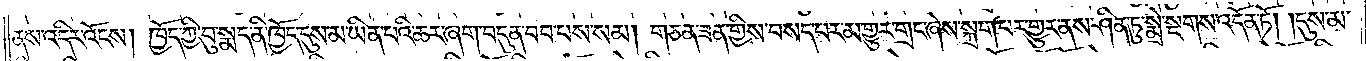ནས་འདིར་འོངས། ཁྱོད་ཀྱི་བུ་སྨད་ནི་ཁྱོད་དུས་མ་ཡིན་པའི་ཆར་ཞག་བདུན་བབ་པས་སམ། གཅན་ཟན་གྱིས་བསད་པར་མ་གྱུར་གྲང་ཞེས་སྐྲག་པར་གྱུར་ནས་ཤིན་ཏུ་སྨྲེ་སྔགས་འདོན་ཏོ། །དུས་མ་
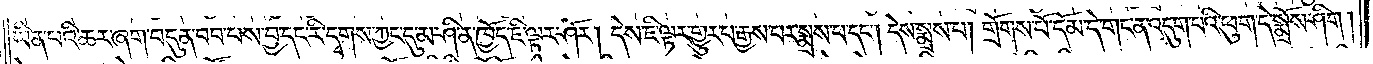ཡིན་པའི་ཆར་ཞག་བདུན་བབ་པས་བྱ་དང་རི་དྭགས་ཀྱང་དུ་མ་ཤི་ན་ཁྱོད་ཇི་ལྟར་ཤོར། དེས་ཇི་ལྟར་གྱུར་པ་རྒྱས་པར་སྨྲས་པ་དང༌། དེས་སྨྲས་པ། གྲོགས་པོ་དོམ་དེ་གང་ན་འདུག་པའི་ཕུག་དེ་སྨྲོས་ཤིག །
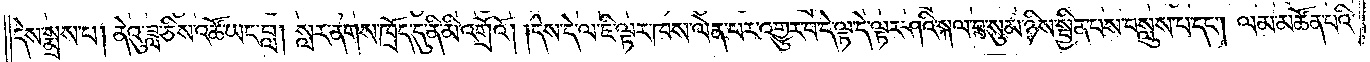དེས་སྨྲས་པ། ནེའུ་ཟླ་ཅིས་འཚོ་ཡང་བླ། སླར་ནགས་ཁྲོད་དུ་ནི་མི་འགྲོའོ། །དེས་དེ་ལ་ཇི་ལྟར་ཁས་ལེན་པར་འགྱུར་བ་དེ་ལྟ་དེ་ལྟར་ཤའི་སྐལ་བ་སུམ་ཉིས་སྦྱིན་པས་བསླུས་པ་དང༌། ལམ་མཚོན་པའི་
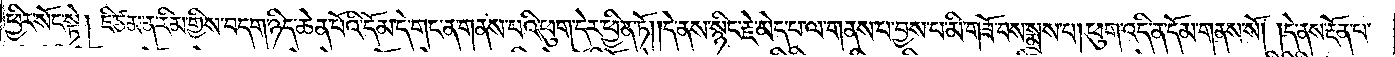ཕྱིར་སོང་སྟེ། ཇི་ཙམ་ན་རིམ་གྱིས་བདག་ཉིད་ཆེན་པོའི་དོམ་དེ་གང་ན་གནས་པའི་ཕུག་དེར་ཕྱིན་ཏོ། །དེ་ནས་སྙིང་རྗེ་མེད་པ་ལ་གནས་པ་བྱས་པ་མི་གཟོ་བས་སྨྲས་པ། ཕུག་འདི་ན་དོམ་གནས་སོ། །དེ་ནས་རྔོན་པ་
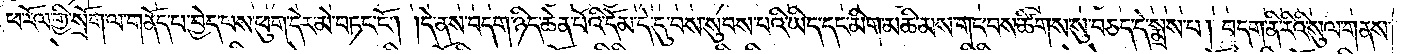ཕ་རོལ་གྱི་སྲོག་ལ་གནོད་པ་བྱེད་པས་ཕུག་དེར་མེ་བཏང་ངོ༌། །དེ་ནས་བདག་ཉིད་ཆེན་པོའི་དོམ་དེ་དུ་བས་སུབས་པའི་ཡིད་དང་མིག་མཆི་མས་གང་བས་ཚིགས་སུ་བཅད་དེ་སྨྲས་པ། བདག་ནི་རིའི་སུལ་གནས་
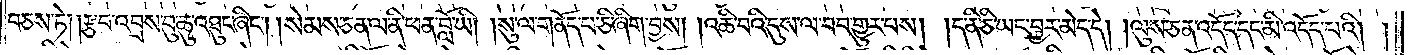བཅས་ཏེ། །རྩ་བ་འབྲས་བུ་ཆུ་འཐུང་ཞིང༌། །སེམས་ཅན་ལ་ནི་ཕན་བློ་ཡིས། །སུ་ལ་གནོད་པ་ཅི་ཞིག་བྱས། །འཆི་བའི་དུས་ལ་བབ་གྱུར་པས། །ད་ནི་ཅི་ཡང་བྱར་མེད་དེ། །ལུས་ཅན་འདོད་དང་མི་འདོད་པའི། །
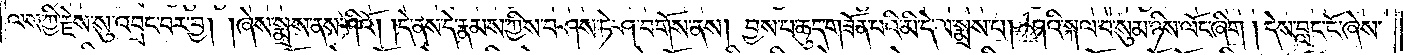ལས་ཀྱི་རྗེས་སུ་འབྲང་བར་བྱ། །ཞེས་སྨྲས་ནས་ཤིའོ། །དེ་ནས་དེ་རྣམས་ཀྱིས་བཤས་ཏེ་ཤ་བགོས་ནས། བྱས་པ་ཆུད་གཟོན་པའི་མི་དེ་ལ་སྨྲས་པ། ཤའི་སྐལ་བ་སུམ་ཉིས་ལོང་ཞིག །དེས་བླང་ངོ་ཞེས་
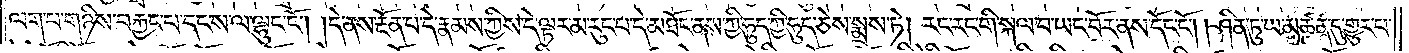ལག་པ་གཉིས་བརྐྱང་པ་དང་ས་ལ་ལྷུང་ངོ༌། །དེ་ནས་རྔོན་པ་དེ་རྣམས་ཀྱིས་དེ་ལྟར་མ་རུང་བ་དེ་མཐོང་ནས་ཀྱི་ཧུད་ཀྱི་ཧུད་ཅེས་སྨྲས་ཏེ། རང་རང་གི་སྐལ་བ་ཡང་བོར་ནས་དོང་ངོ༌། །ཤིན་ཏུ་ཡ་མཚན་དུ་གྱུར་པ་
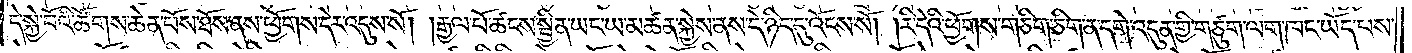དེ་སྐྱེ་བོའི་ཚོགས་ཆེན་པོས་ཐོས་ནས་ཕྱོགས་དེར་འདུས་སོ། །རྒྱལ་པོ་ཚངས་སྦྱིན་ཡང་ཡ་མཚན་སྐྱེས་ནས་དེ་ཉིད་དུ་འོངས་སོ། །རི་དེའི་ཕྱོགས་གཅིག་ཅིག་ན་དགེ་འདུན་གྱི་གཙུག་ལག་ཁང་ཡོད་པས་
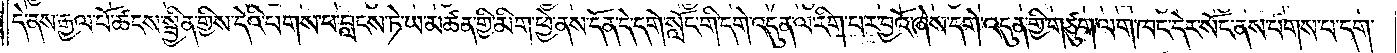དེ་ནས་རྒྱལ་པོ་ཚངས་སྦྱིན་གྱིས་དེའི་པགས་པ་བླངས་ཏེ་ཡ་མཚན་གྱི་མིག་ཕྱེ་ནས་དོན་དེ་དགེ་སློང་གི་དགེ་འདུན་ལ་རིག་པར་བྱའོ་ཞེས་དགེ་འདུན་གྱི་གཙུག་ལག་ཁང་དེར་སོང་ནས་པགས་པ་དག་
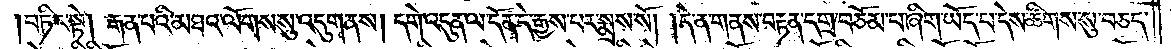བཏིང་སྟེ། རྒན་པའི་མཐའ་ལོགས་སུ་འདུག་ནས། དགེ་འདུན་ལ་དོན་དེ་རྒྱས་པར་སྨྲས་སོ། །དེ་ན་གནས་བརྟན་དགྲ་བཅོམ་པ་ཞིག་ཡོད་པ་དེས་ཚིགས་སུ་བཅད་
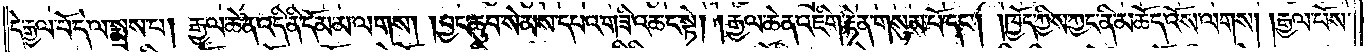དེ་རྒྱལ་པོ་དེ་ལ་སྨྲས་པ། རྒྱལ་ཆེན་འདི་ནི་དོམ་མ་ལགས། །བྱང་ཆུབ་སེམས་དཔའ་གཟི་འཆང་སྟེ། །རྒྱལ་ཆེན་འཇིག་རྟེན་གསུམ་པོ་དང༌། །ཁྱོད་ཀྱིས་ཀྱང་ནི་མཆོད་འོས་ལགས། །རྒྱལ་པོས་
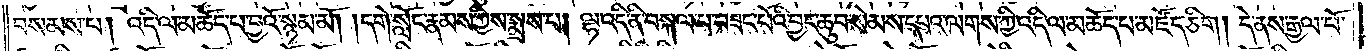བསམས་པ། འདི་ལ་མཆོད་པ་བྱའོ་སྙམ་མོ། །དགེ་སློང་རྣམས་ཀྱིས་སྨྲས་པ། ལྷ་འདི་ནི་བསྐལ་པ་བཟང་པོའི་བྱང་ཆུབ་སེམས་དཔའ་ལགས་ཀྱི་འདི་ལ་མཆོད་པ་མཛོད་ཅིག །དེ་ནས་རྒྱལ་པོ་
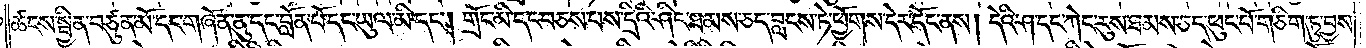ཚངས་སྦྱིན་བཙུན་མོ་དང་གཞོན་ནུ་དང་བློན་པོ་དང་ཡུལ་མི་དང༌། གྲོང་མི་དང་བཅས་པས་དྲིའི་ཤིང་ཐམས་ཅད་བླངས་ཏེ་ཕྱོགས་དེར་དོང་ནས། དེའི་ཤ་དང་ཀེང་རུས་ཐམས་ཅད་ཕུང་པོ་གཅིག་ཏུ་བྱས་
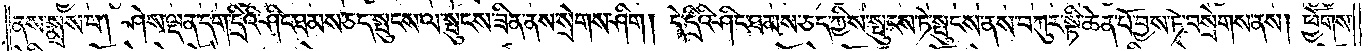ནས་སྨྲས་པ། ཤེས་ལྡན་དག་དྲིའི་ཤིང་ཐམས་ཅད་སྤུངས་ལ་སྤུངས་ཟིན་ནས་སྲེགས་ཤིག །དེ་དྲིའི་ཤིང་ཐམས་ཅད་ཀྱིས་སྤུངས་ཏེ་སྤུངས་ནས་བཀུར་སྟི་ཆེན་པོ་བྱས་ཏེ་བསྲེགས་ནས། ཕྱོགས་
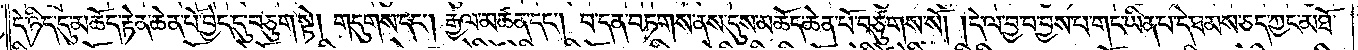དེ་ཉིད་དུ་མཆོད་རྟེན་ཆེན་པོ་བྱེད་དུ་བཅུག་སྟེ། གདུགས་དང༌། རྒྱལ་མཚན་དང༌། བ་དན་བཏགས་ནས་དུས་མཆོད་ཆེན་པོ་བཙུགས་སོ། །དེ་ལ་བྱ་བ་བྱས་པ་གང་ཡིན་པ་དེ་ཐམས་ཅད་ཀྱང་མཐོ་
